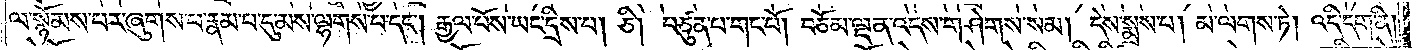ལ་སྙོམས་པར་ཞུགས་པ་རྣམ་པ་དུ་མས་ལྷགས་པ་དང༌། རྒྱལ་པོས་ཡང་དྲིས་པ། ཅི། བཙུན་པ་གང་པོ། བཅོམ་ལྡན་འདས་གཤེགས་སམ། དེས་སྨྲས་པ། མ་ལགས་ཏེ། འདི་དག་ནི།
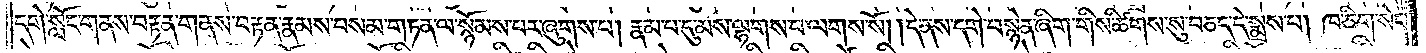དགེ་སློང་གནས་བརྟན་གནས་བརྟན་རྣམས་བསམ་གཏན་ལ་སྙོམས་པར་ཞུགས་པ། རྣམ་པ་དུ་མས་ལྷགས་པ་ལགས་སོ། །དེ་ནས་དགེ་བསྙེན་ཞིག་གིས་ཚིགས་སུ་བཅད་དེ་སྨྲས་པ། ཁ་ཅིག་སེང་
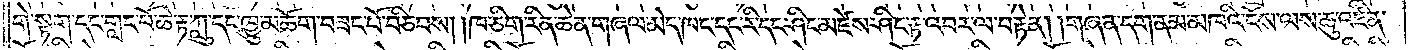གེ་སྟག་དང་གླང་པོ་ཆེ་རྟ་ཀླུ་དང་ཁྱུ་མཆོག་བཟང་པོ་བཅིབས། །ཁ་ཅིག་རིན་ཆེན་གཞལ་མེད་ཁང་དང་རི་དང་ཤིང་མཛེས་ཤིང་རྟ་འབར་ལ་བརྟེན། །གཞན་དག་ནམ་མཁའི་ངོས་ལས་ཆུ་འཛིན་
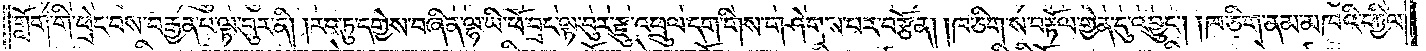གློག་གི་ཕྲེང་བས་བརྒྱན་པ་ལྟ་བུར་ནི། །རབ་ཏུ་དགྱེས་བཞིན་ལྷ་ཡི་ཕོ་བྲང་ལྟ་བུར་རྫུ་འཕྲུལ་དག་གིས་གཤེགས་པར་བརྩོན། །ཁ་ཅིག་ས་བརྟོལ་གྱེན་དུ་འབྱུང༌། །ཁ་ཅིག་ནམ་མཁའི་དཀྱིལ་
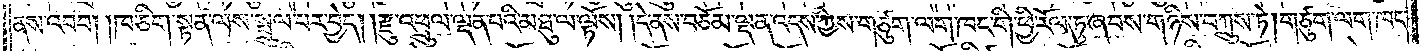ནས་འབབ། །ཁ་ཅིག་སྟན་ལས་སྤྲུལ་པར་བྱེད། །རྫུ་འཕྲུལ་ལྡན་པའི་མཐུ་ལ་ལྟོས། །དེ་ནས་བཅོམ་ལྡན་འདས་ཀྱིས་གཙུག་ལག་ཁང་གི་ཕྱི་རོལ་ཏུ་ཞབས་གཉིས་བཀྲུས་ཏེ། གཙུག་ལག་ཁང་
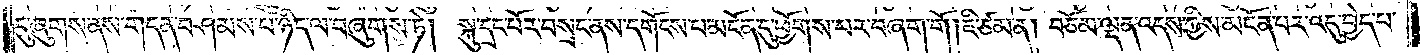དུ་ཞུགས་ནས་གདན་བཤམས་པ་ཉིད་ལ་བཞུགས་ཏེ། སྐུ་དྲང་པོར་བསྲང་ནས་དགོངས་པ་མངོན་དུ་ཕྱོགས་པར་བཞག་གོ །ཇི་ཙམ་ན། བཅོམ་ལྡན་འདས་ཀྱིས་མངོན་པར་འདུ་བྱེད་པ་
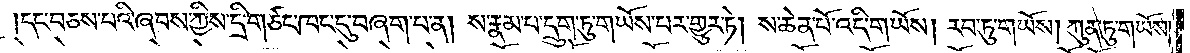དང་བཅས་པའི་ཞབས་ཀྱིས་དྲི་གཙང་ཁང་དུ་བཞག་པ་ན། ས་རྣམ་པ་དྲུག་ཏུ་གཡོས་པར་གྱུར་ཏེ། ས་ཆེན་པོ་འདི་གཡོས། རབ་ཏུ་གཡོས། ཀུན་ཏུ་གཡོས་
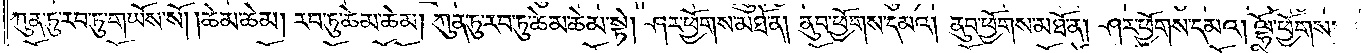ཀུན་ཏུ་རབ་ཏུ་གཡོས་སོ། །ཆེམ་ཆེམ། རབ་ཏུ་ཆེམ་ཆེམ། ཀུན་ཏུ་རབ་ཏུ་ཆེམ་ཆེམ་སྟེ། ཤར་ཕྱོགས་མཐོ་ན། ནུབ་ཕྱོགས་དམའ། ནུབ་ཕྱོགས་མཐོ་ན། ཤར་ཕྱོགས་དམ། །ལྷོ་ཕྱོགས་
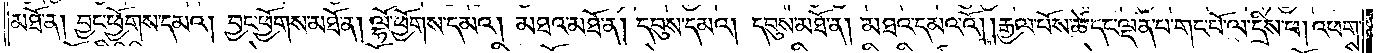མཐོ་ན། བྱང་ཕྱོགས་དམའ། བྱང་ཕྱོགས་མཐོ་ན། ལྷོ་ཕྱོགས་དམའ། མཐའ་མཐོ་ན། དབུས་དམའ། དབུས་མཐོ་ན། མཐའ་དམའ་འོ། །རྒྱལ་པོས་ཚེ་དང་ལྡན་པ་གང་པོ་ལ་དྲིས་པ། འཕགས་
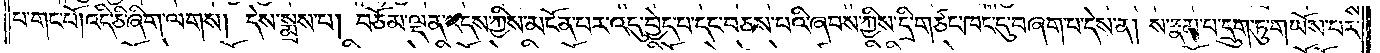པ་གང་པོ། འདི་ཅི་ཞིག་ལགས། དེས་སྨྲས་པ། བཅོམ་ལྡན་འདས་ཀྱིས་མངོན་པར་འདུ་བྱེད་པ་དང་བཅས་པའི་ཞབས་ཀྱིས་དྲི་གཙང་ཁང་དུ་བཞག་པ་དེས་ན། ས་རྣམ་པ་དྲུག་ཏུ་གཡོས་པར་
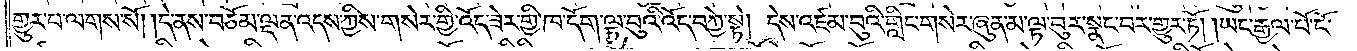གྱུར་པ་ལགས་སོ། །དེ་ནས་བཅོམ་ལྡན་འདས་ཀྱིས་གསེར་གྱི་འོད་ཟེར་གྱི་ཁ་དོག་ལྟ་བུའི་འོད་བཀྱེ་སྟེ། དེས་འཛམ་བུའི་གླིང་གསེར་ཞུན་མ་ལྟ་བུར་སྣང་བར་གྱུར་ཏོ། །ཡང་རྒྱལ་པོ་ངོ་
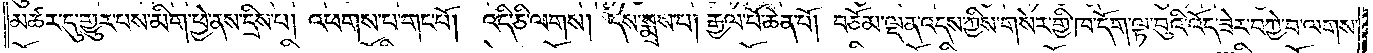མཚར་དུ་གྱུར་པས་མིག་ཕྱེ་ནས་དྲིས་པ། འཕགས་པ་གང་པོ། འདི་ཅི་ལགས། དེས་སྨྲས་པ། རྒྱལ་པོ་ཆེན་པོ། བཅོམ་ལྡན་འདས་ཀྱིས་གསེར་གྱི་ཁ་དོག་ལྟ་བུའི་འོད་ཟེར་བཀྱེ་བ་ལགས་
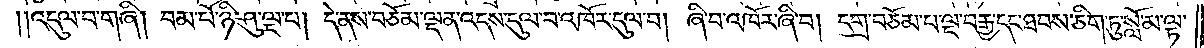འདུལ་བ་གཞི། བམ་པོ་ཉི་ཤུ་ལྔ་པ། འདུལ་བ་གཞི། བམ་པོ་ཉི་ཤུ་ལྔ་པ། དེ་ནས་བཅོམ་ལྡན་འདས་དུལ་བ་འཁོར་དུལ་བ། ཞི་བ་འཁོར་ཞི་བ། དགྲ་བཅོམ་པ་ལྔ་བརྒྱ་དང་ཐབས་ཅིག་ཏུ་སློ་མ་ལྟ་
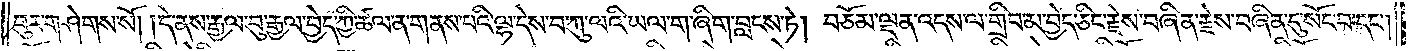བུར་གཤེགས་སོ། །དེ་ནས་རྒྱལ་བུ་རྒྱལ་བྱེད་ཀྱི་ཚལ་ན་གནས་པའི་ལྷ་དེས་བ་ཀུ་ལའི་ཡལ་ག་ཞིག་བླངས་ཏེ། བཅོམ་ལྡན་འདས་ལ་གྲིབ་མ་བྱེད་ཅིང་རྗེས་བཞིན་རྗེས་བཞིན་དུ་སོང་བ་དང༌།
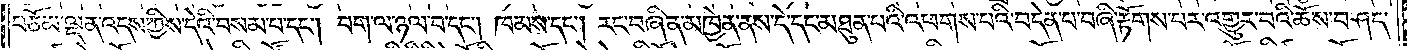བཅོམ་ལྡན་འདས་ཀྱིས་དེའི་བསམ་པ་དང༌། བག་ལ་ཉལ་བ་དང༌། ཁམས་དང༌། རང་བཞིན་མཁྱེན་ནས་དེ་དང་མཐུན་པའི་འཕགས་པའི་བདེན་པ་བཞི་རྟོགས་པར་འགྱུར་བའི་ཆོས་བཤད་
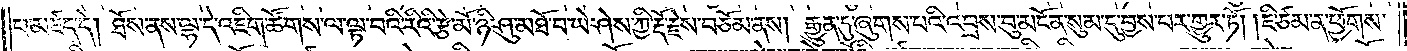པ་མཛད་དེ། ཐོས་ནས་ལྷ་དེ་འཇིག་ཚོགས་ལ་ལྟ་བའི་རིའི་རྩེ་མོ་ཉི་ཤུ་མཐོ་བ་ཡེ་ཤེས་ཀྱི་རྡོ་རྗེས་བཅོམ་ནས། རྒྱུན་དུ་ཞུགས་པའི་འབྲས་བུ་མངོན་སུམ་དུ་བྱས་པར་གྱུར་ཏོ། །ཇི་ཙམ་ན་ཕྱོགས་
